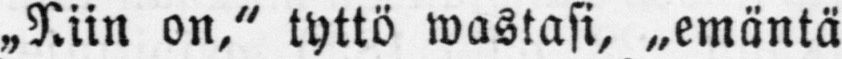„Niin on," tyttö wastasi, „emäntä
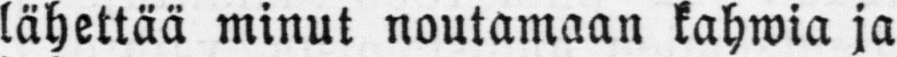lähettää minut noutamaan kahwia ja
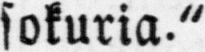sokuria"
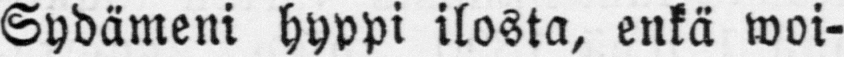Sydämeni hyppi ilosta, enkä woi-
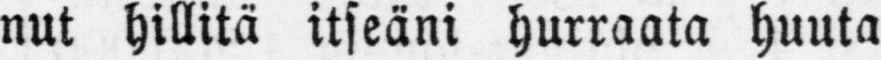nut hillitä itseäni hurraata huuta-
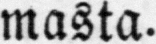masta.
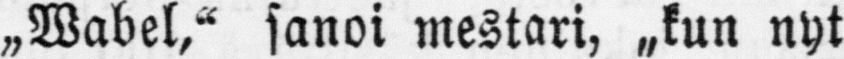„Wabel," sanoi mestari, „kun nyt
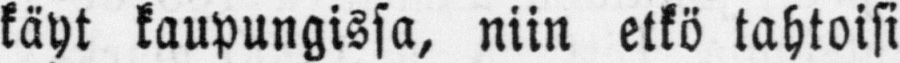käyt kaupungissa, niin etkö tahtoisi
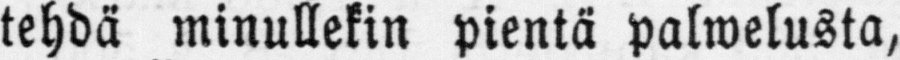tehdä minullekin pientä palwelusta,
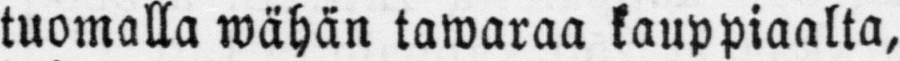tuomalla wähän tawaraa kauppiaalta,
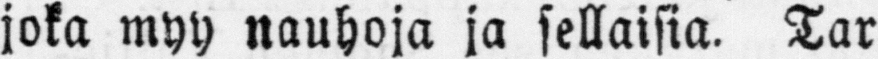joka myy nauhoja ja sellaisia. Tar
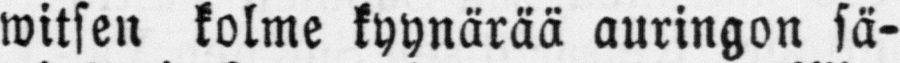witsen kolme kyynärää auringon sä-
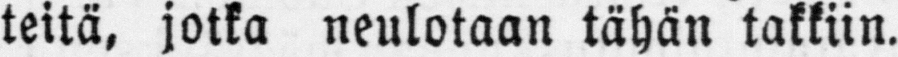teitä, jotka neulotaan tähän takkiin.
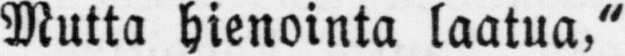Mutta hienointa laatua,"
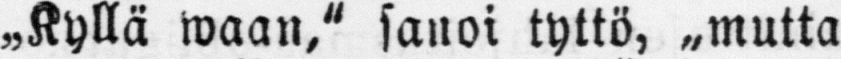„Kyllä waan," sanoi tyttö, „mutta
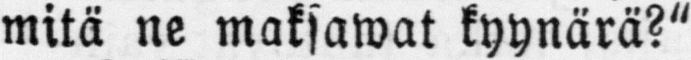mitä ne maksawat kyynärä?"
